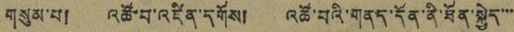གསུམ་པ། འཚོ་བ་འཛིན་དགོས། འཚོ་བའི་གནད་དོན་ནི་ཐོན་སྐྱེད་་་
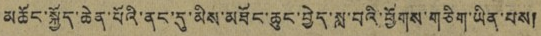མཆོང་སྐྱོད་ཆེན་པོའི་ནང་དུ་མིས་མཐོང་ཆུང་བྱེད་སླ་བའི་ཕྱོགས་གཅིག་ཡིན་པས།
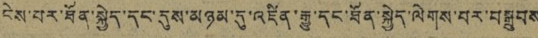ངེས་པར་ཐོན་སྐྱེད་དང་དུས་མཉམ་དུ་འཛིན་རྒྱུ་དང་ཐོན་སྐྱེད་ལེགས་པར་བསྒྲུབས
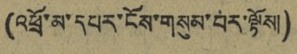(འཕྲོ་མ་དཔར་ངོས་གསུམ་བར་ལྟོས།)
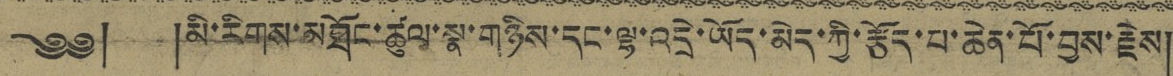༄༅། །མི་རིགས་མཐོང་ཚུལ་སྣ་གཉིས་དང་ལྷ་འདྲེ་ཡོད་མེད་ཀྱི་རྩོད་པ་ཆེན་པོ་བྱས་རྗེས།
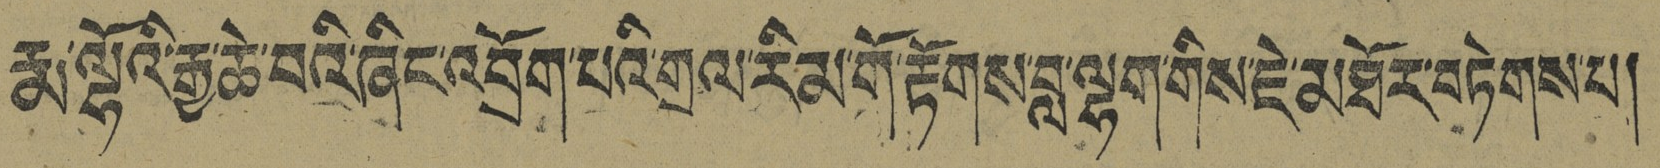རྨ་ལྷོའི་རྒྱ་ཆེ་བའི་ཞིང་འབྲོག་པའི་གྲལ་རིམ་གོ་རྟོགས་བླ་ལྷག་གིས་ཇེ་མཐོར་བཏེགས་པ།
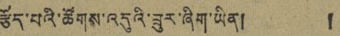རྩོད་པའི་ཚོགས་འདུའི་ཟུར་ཞིག་ཡིན། །
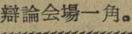辯論會塲一角。
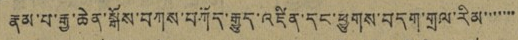རྣམ་པ་རྒྱ་ཆེན་སྒོས་བཀས་བཀོད་རྒྱུད་འཛིན་དང་ཕྱུགས་བདག་གྲལ་རིམ་་་་་་་
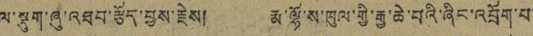ལ་སྡུག་ཞུ་འཐབ་རྩོད་བྱས་རྗེས། རྨ་ལྷོ་ས་ཁུལ་གྱི་རྒྱ་ཆེ་བའི་ཞིང་འབྲོག་པ་
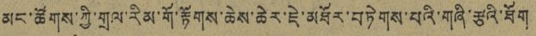མང་ཚོགས་ཀྱི་གྲལ་རིམ་གོ་རྟོགས་ཆེས་ཆེར་ཇེ་མཐོར་བཏེགས་པའི་གཞི་རྩའི་ཐོག
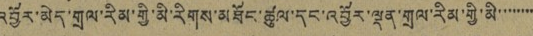འབྱོར་མེད་གྲལ་རིམ་གྱི་མི་རིགས་མཐོང་ཚུལ་དང་འབྱོར་ལྡན་གྲལ་རིམ་གྱི་མི་་་་་་་་
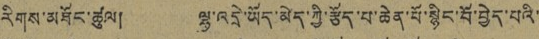རིགས་མཐོང་ཚུལ། ལྷ་འདྲེ་ཡོད་མེད་ཀྱི་རྩོད་པ་ཆེན་པོ་སྙིང་པོ་བྱེད་པའི་
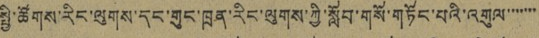སྤྱི་ཚོགས་རིང་ལུགས་དང་གུང་ཁྲན་རིང་ལུགས་ཀྱི་སློབ་གསོ་གཏོང་པའི་འགུལ་་་་་་་
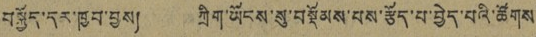བསྐྱོད་དར་ཁྱབ་བྱས། ཀྲིག་ཡོངས་སུ་བསྡོམས་པས་རྩོད་པ་བྱེད་པའི་ཚོགས་
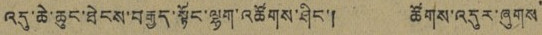འདུ་ཆེ་ཆུང་ཐེངས་བརྒྱད་སྟོང་ལྷག་འཚོགས་ཤིང་། ཚོགས་འདུར་ཞུགས་
